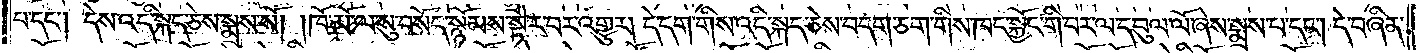པ་དང༌། དེས་འདི་སྐད་ཅེས་སྨྲས་སོ། །ཁོ་མོ་ལ་སུ་བསོད་སྙོམས་སྟེར་བར་འགྱུར། དེ་དག་གིས་འདི་སྐད་ཅེས་བདག་ཅག་གིས་ཁང་སྐྱོང་གི་བར་ལ་དབུལ་ལོ་ཞེས་སྨྲས་པ་དང༌། དེ་བཞིན་
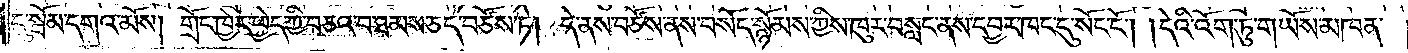དུ་སྦོམ་དགའ་མོས། གྲོང་ཁྱེར་ཕྱེད་ཀྱི་བཅའ་བ་ཐམས་ཅད་བཙོས་ཏེ། དེ་ནས་བཙོས་ནས་བསོད་སྙོམས་ཀྱིས་ཁུར་བསླང་ནས་དབྱར་ཁང་དུ་སོང་ངོ༌། །དེའི་འོག་ཏུ་གཡོས་མཁན་
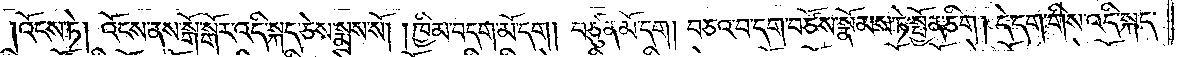འོངས་ཏེ། འོངས་ནས་སྒོ་སྒོར་འདི་སྐད་ཅེས་སྨྲས་སོ། །ཁྱིམ་བདག་མོ་དག །བཙུན་མོ་དག །བཅའ་བ་དག་བཙོས་སྣོམས་ཏེ་སྤྱོན་ཅིག །དེ་དག་གིས་འདི་སྐད་
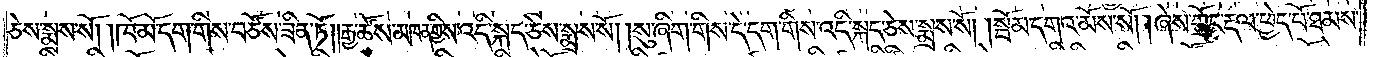ཅེས་སྨྲས་སོ། །ཁོ་མོ་དག་གིས་བཙོས་ཟིན་ཏོ། །རྒྱ་ཚོས་མཁན་གྱིས་འདི་སྐད་ཅེས་སྨྲས་སོ། །སུ་ཞིག་གིས་དེ་དག་གིས་འདི་སྐད་ཅེས་སྨྲས་སོ། །སྦོམ་དགའ་མོས་སོ། །ཞེས་གྲོང་རྡལ་ཕྱེད་པོ་ཐམས་
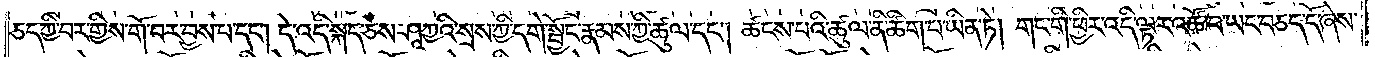ཅད་ཀྱི་བར་གྱིས་གོ་བར་བྱས་པ་དང༌། དེ་འདི་སྐད་ཅེས་ཤཱཀྱའི་སྲས་ཀྱི་དགེ་སྦྱོང་རྣམས་ཀྱི་ཚུལ་དང༌། ཚངས་པའི་ཚུལ་ནི་ཚིག་པ་ཡིན་ཏེ། གང་གི་ཕྱིར་འདི་ལྟར་འཚོ་བ་ཡང་བཅད་དོ་ཞེས་
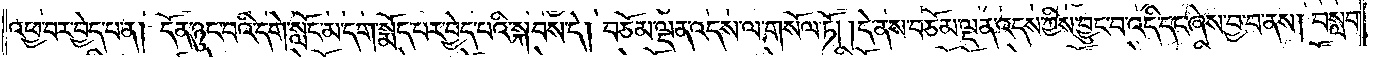འཕྱ་བར་བྱེད་པ་ན། དོན་ཉུང་བའི་དགེ་སློང་མ་དག་སྨོད་པར་བྱེད་པའི་སྐབས་དེ། བཅོམ་ལྡན་འདས་ལ་གསོལ་ཏོ། །དེ་ནས་བཅོམ་ལྡན་འདས་ཀྱིས་བྱུང་བ་འདི་དང་ཞེས་བྱ་བ་ནས། བསླབ་
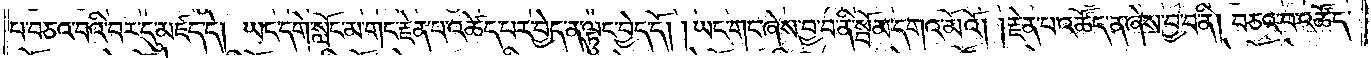པ་བཅའ་བའི་བར་དུ་མཛད་དེ། ཡང་དགེ་སློང་མ་གང་རྗེན་པ་འཚེད་པར་བྱེད་ན་ལྟུང་བྱེད་དོ། །ཡང་གང་ཞེས་བྱ་བ་ནི་སྦོམ་དགའ་མོའོ། །རྗེན་པ་འཚོད་ན་ཞེས་བྱ་བ་ནི། བཅའ་བ་འཚོད་
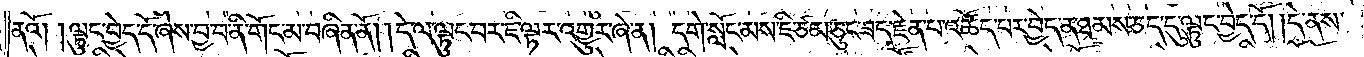ནའོ། །ལྟུང་བྱེད་དོ་ཞེས་བྱ་བ་ནི་གོང་མ་བཞིན་ནོ། །དེ་ལ་ལྟུང་བར་ཇི་ལྟར་འགྱུར་ཞེ་ན། དགེ་སློང་མས་ཇི་ཙམ་ཅུང་ཟད་རྗེན་པ་འཚོད་པར་བྱེད་ན་ཐམས་ཅད་དུ་ལྟུང་བྱེད་དོ། །དེ་ནས་
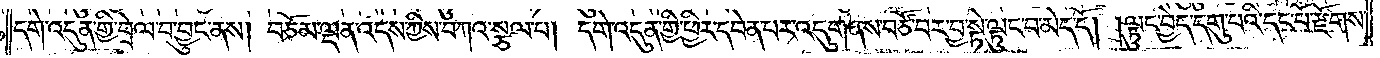དགེ་འདུན་གྱི་བྲེལ་བ་བྱུང་ནས། བཅོམ་ལྡན་འདས་ཀྱིས་བཀའ་སྩལ་པ། དགེ་འདུན་གྱི་ཕྱིར་དབེན་པར་འདུག་ནས་བཙོ་བར་བྱ་སྟེ་ལྟུང་བ་མེད་དོ། །ལྟུང་བྱེད་དགུ་པའི་དང་པོ་རྫོགས་
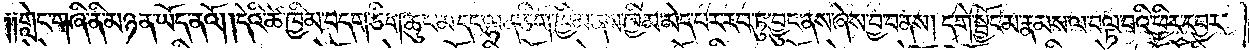༑༑གླེང་གཞི་ནི་མཉན་ཡོད་ནའོ། །དེའི་ཚེ་ཁྱིམ་བདག་ཅིག་ཆུང་མ་དང་ལྷན་ཅིག་ཁྱིམ་ནས་ཁྱིམ་མེད་པར་རབ་ཏུ་བྱུང་ནས་ཞེས་བྱ་བ་ནས། དགེ་སྦྱོང་མ་རྣམས་ལ་བལྟ་བའི་ཕྱིར་དབྱར་
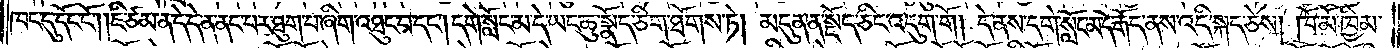ཁང་དུ་དོང་ངོ༌། །ཇི་ཙམ་ན་དེ་དེ་ན་ནང་པར་ཐུག་པ་ཞིག་འཐུང་བ་དང༌། དགེ་སློང་མ་དེ་ཡང་ཆུ་སྣོད་ཅིག་ཐོགས་ཏེ། མདུན་ན་སྡོད་ཅིང་འདུག་གོ །དེ་ནས་དགེ་སློང་མ་དེ་རྒོད་ནས་འདི་སྐད་ཅེས། ཁོ་མོ་ཁྱིམ་
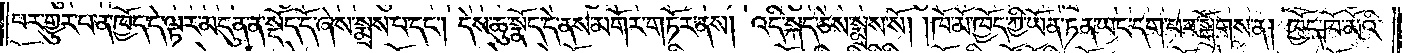པར་གྱུར་པ་ན་ཁྱོད་དེ་ལྟར་མདུན་ན་སྡོད་དོ་ཞེས་སྨྲས་པ་དང༌། དེས་ཆུ་སྣོད་དེ་ནས་མགོར་གཏོར་ནས། འདི་སྐད་ཅེས་སྨྲས་སོ། །ཁོ་མོ་ཁྱོད་ཀྱི་ཡོན་ཏན་ཡང་དག་པར་སྒྲོགས་ན། ཁྱོད་ཁོ་མོའི་
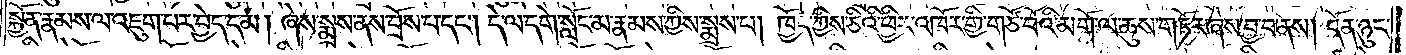སྐྱོན་རྣམས་ལ་འཇུག་པར་བྱེད་དམ། ཞེས་སྨྲས་ནས་བྲོས་པ་དང༌། དེ་ལ་དགེ་སློང་མ་རྣམས་ཀྱིས་སྨྲས་པ། ཁྱོད་ཀྱིས་ཅིའི་ཕྱིར་འཁོར་གྱི་གཙོ་བོའི་མགོ་ལ་ཆུས་གཏོར་ཞེས་བྱ་བ་ནས། དོན་ཉུང་
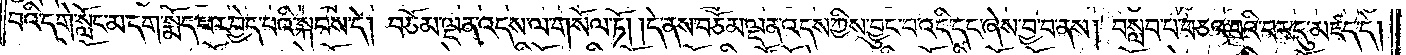བའི་དགེ་སློང་མ་དག་སྨོད་པར་བྱེད་པའི་སྐབས་དེ། བཅོམ་ལྡན་འདས་ལ་གསོལ་ཏོ། །དེ་ནས་བཅོམ་ལྡན་འདས་ཀྱིས་བྱུང་བ་འདི་དང་ཞེས་བྱ་བ་ནས། བསླབ་པ་བཅའ་བའི་བར་དུ་མཛད་དེ།
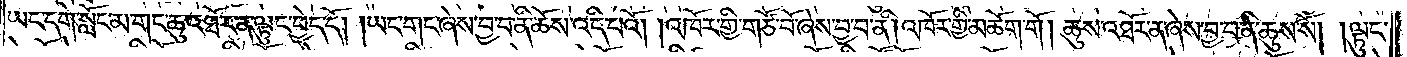ཡང་དགེ་སློང་མ་གང་ཆུ་འཐོར་ན་ལྟུང་བྱེད་དོ། །ཡང་གང་ཞེས་བྱ་བ་ནི་ཆོས་འདི་པའོ། །འཁོར་གྱི་གཙོ་བོ་ཞེས་བྱ་བ་ནི། འཁོར་གྱི་མཆོག་གོ །ཆུས་འཐོར་ན་ཞེས་བྱ་བ་ནི་ཆུས་སོ། །ལྟུང་
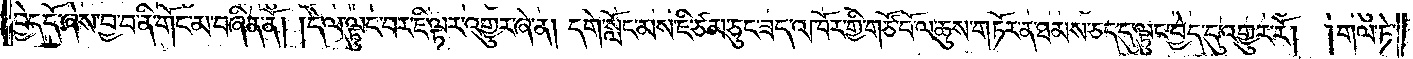བྱེད་དོ་ཞེས་བྱ་བ་ནི་གོང་མ་བཞིན་ནོ། །དེ་ལ་ལྟུང་བར་ཇི་ལྟར་འགྱུར་ཞེ་ན། དགེ་སློང་མས་ཇི་ཙམ་ཅུང་ཟད་འཁོར་གྱི་གཙོ་བོ་ལ་ཆུས་གཏོར་ན་ཐམས་ཅད་དུ་ལྟུང་བྱེད་དུ་འགྱུར་རོ། །གལ་ཏེ་
